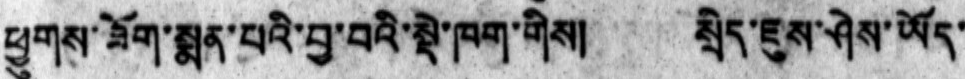ཕྱུགས་ཟོག་སྨན་པའི་བྱ་བའི་སྡེ་ཁག་གིས། སྲིད་ཇུས་ཤེས་ཡོད་
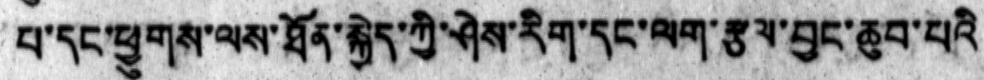པ་དང་ཕྱུགས་ལས་ཐོན་སྐྱེད་ཀྱི་ཤེས་རིག་དང་ལག་རྩམ་བྱང་ཆུབ་པའི
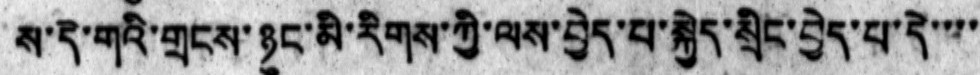ས་དེ་གའི་གྲངས་ཉུང་མི་རིགས་ཀྱི་ལས་བྱེད་པ་སྐྱེད་སྲིང་བྱེད་པ་དེ་་་་
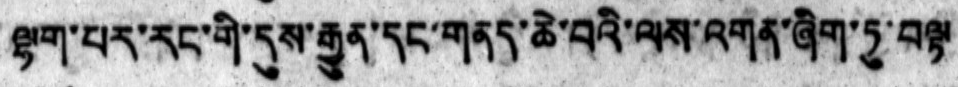ལྷག་པར་རང་གི་དུས་རྒྱུན་དང་གནད་ཆེ་བའི་ལས་འགན་ཞིག་ཏུ་བལྟ
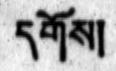དགོས།
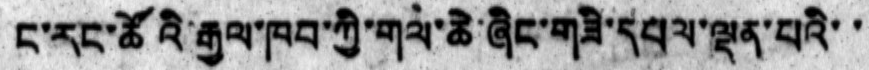ང་རང་ཚོའི་རྒྱལ་ཁབ་ཀྱི་གལ་ཆེ་ཞིང་གཟི་དཔལ་ལྡན་པའི་་
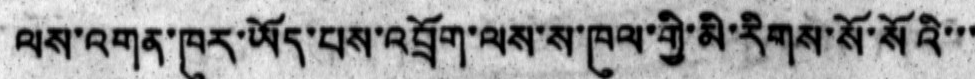ལས་འགན་ཁུར་ཡོད་པས་འབྲོག་ལས་ས་ཁུལ་གྱི་མི་རིགས་སོ་སོའི་་་
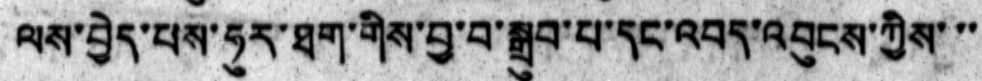ལས་བྱེད་པས་ཧུར་ཐག་གིས་བྱ་བ་སྒྲུབ་པ་དང་འབད་འབུངས་ཀྱིས་་་
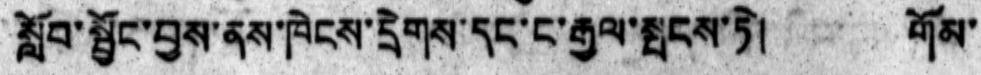སློབ་སྦྱོང་བྱས་ནས་ཁེངས་དྲེགས་དང་ང་རྒྱལ་སྤངས་ཏེ། གོམ་
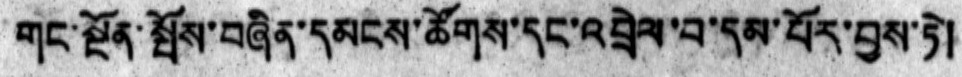གང་སྔོན་སྤོས་བཞིན་དམངས་ཚོགས་དང་འབྲེལ་བ་དམ་པོར་བྱས་ཏེ།
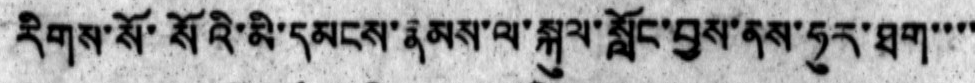རིགས་སོ་སོའི་མི་དམངས་རྣམས་ལ་སྐུལ་སློང་བྱས་ནས་ཧུར་ཐག་་་་
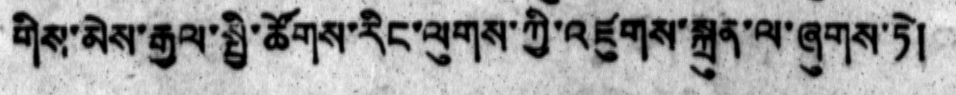གིས་མེས་རྒྱལ་སྤྱི་ཚོགས་རིང་ལུགས་ཀྱི་འཛུགས་སྐྲུན་ལ་ཞུགས་ཏེ།
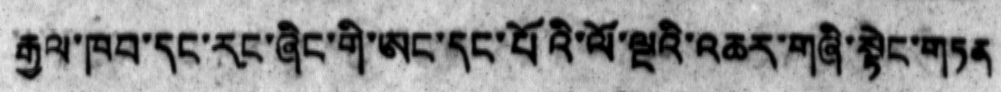རྒྱལ་ཁབ་དང་རང་ཞིང་གི་ཨང་དང་པོའི་ལོ་ལྔའི་འཆར་གཞི་སྟེང་གཏན
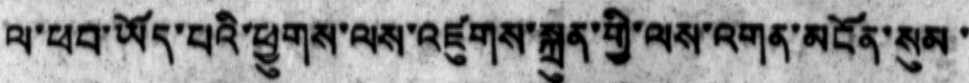ལ་ཕབ་ཡོད་པའི་ཕྱུགས་ལས་འཛུགས་སྐྲུན་གྱི་ལས་འགན་མངོན་སུམ་
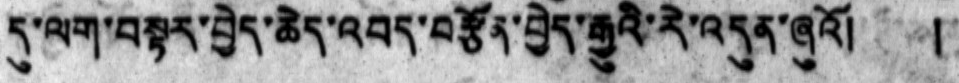དུ་ལག་བསྟར་བྱེད་ཆེད་འབད་བརྩོན་བྱེད་རྒྱུའི་རེ་འདུན་ཞུའོ། །
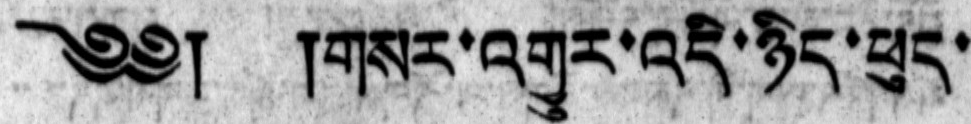༄༅། །གསར་འགྱུར་འདི་ཉིད་ཕུད་
